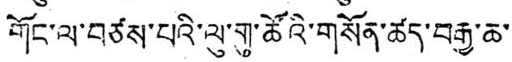གོང་ལ་བཙས་པའི་ལུ་གུ་ཚོའི་གསོན་ཚད་བརྒྱ་ཆ་
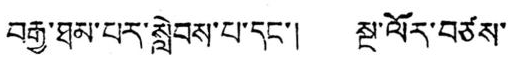བརྒྱ་ཐམ་པར་སླེབས་པ་དང་། སྔ་ལོར་བཙས་
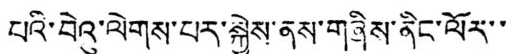པའི་བེའུ་ལེགས་པར་སྐྱེས་ནས་གཞིས་ནིང་ལོར་་
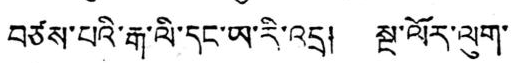བཙས་པའི་རྒ་ལི་དང་ཡ་རི་འདྲ། སྔ་ལོར་ལུག་
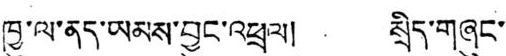ཁྱུ་ལ་ནད་ཡམས་བྱུང་འཕྲལ། སྲིད་གཞུང་
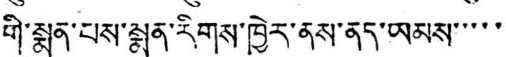གི་སྨན་པས་སྨན་རིགས་ཁྱེར་ནས་ནད་ཡམས་་་་་
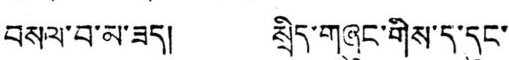བསལ་བ་མ་ཟད། སྲིད་གཞུང་གིས་ད་དུང་
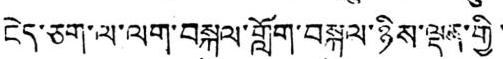ངེད་ཅག་ལ་ལག་བསྐུལ་གློག་བསྐུལ་ཉིས་ལྡན་གྱི་
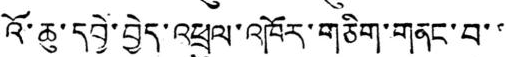འོ་ཆུ་དབྱེ་བྱེད་འཕྲུལ་འཁོར་གཅིག་གནང་བ་་
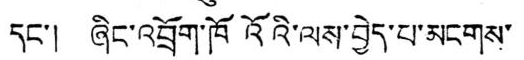དང་། ཞིང་འབྲོག་ཁོའོའི་ལས་བྱེད་པ་མངགས་
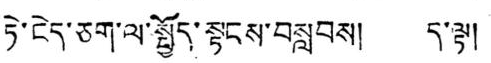ཏེ་ངེད་ཅག་ལ་སྤྱོད་སྟངས་བསླབས། ད་ལྟ།
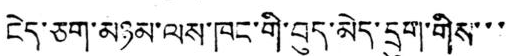ངེད་ཅག་མཉམ་ལས་ཁང་གི་བུད་མེད་དྲུག་གིས་་་
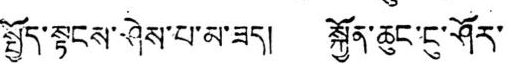སྤྱོད་སྟངས་ཤེས་པ་མ་ཟད། སྐྱོན་ཆུང་ངུ་ཤོར་
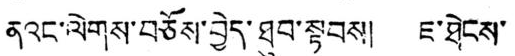ནའང་ལེགས་བཅོས་བྱེད་ཐུབ་སྟབས། ཇ་ཐེངས་
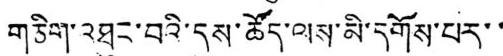གཅིག་འཐུང་བའི་དུས་ཚོད་ལས་མི་དགོས་པར་་
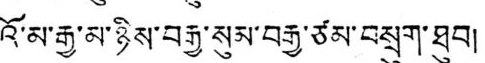འོ་མ་རྒྱ་མ་ཉིས་བརྒྱ་སུམ་བརྒྱ་ཙམ་བསྲུག་ཐུབ།
